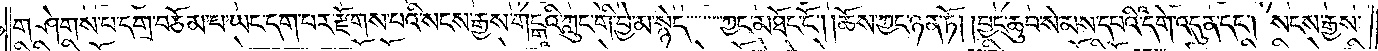གཤེགས་པ་དགྲ་བཅོམ་པ་ཡང་དག་པར་རྫོགས་པའི་སངས་རྒྱས་གངྒཱའི་ཀླུང་གི་བྱེ་མ་སྙེད་ཀྱང་མཐོང་ངོ༌། །ཆོས་ཀྱང་ཉན་ཏོ། །བྱང་ཆུབ་སེམས་དཔའི་དགེ་འདུན་དང༌། སངས་རྒྱས་
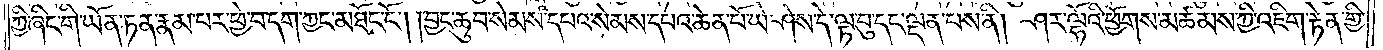ཀྱི་ཞིང་གི་ཡོན་ཏན་རྣམ་པར་ཕྱེ་བ་དག་ཀྱང་མཐོང་ངོ༌། །བྱང་ཆུབ་སེམས་དཔའ་སེམས་དཔའ་ཆེན་པོ་ཡེ་ཤེས་དེ་ལྟ་བུ་དང་ལྡན་པས་ནི། ཤར་ལྷོའི་ཕྱོགས་མཚམས་ཀྱི་འཇིག་རྟེན་གྱི་
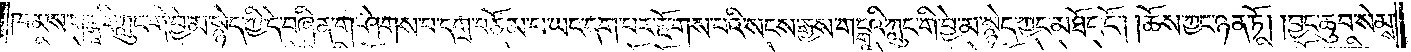ཁམས་གངྒཱའི་ཀླུང་གི་བྱེ་མ་སྙེད་ཀྱི་དེ་བཞིན་གཤེགས་པ་དགྲ་བཅོམ་པ་ཡང་དག་པར་རྫོགས་པའི་སངས་རྒྱས་གངྒཱའི་ཀླུང་གི་བྱེ་མ་སྙེད་ཀྱང་མཐོང་ངོ༌། །ཆོས་ཀྱང་ཉན་ཏོ། །བྱང་ཆུབ་སེམས་
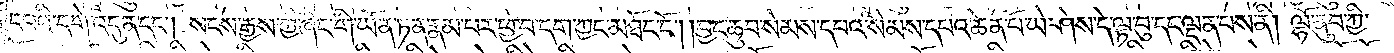དཔའི་དགེ་འདུན་དང༌། སངས་རྒྱས་ཀྱི་ཞིང་གི་ཡོན་ཏན་རྣམ་པར་ཕྱེ་བ་དག་ཀྱང་མཐོང་ངོ༌། །བྱང་ཆུབ་སེམས་དཔའ་སེམས་དཔའ་ཆེན་པོ་ཡེ་ཤེས་དེ་ལྟ་བུ་དང་ལྡན་པས་ནི། ལྷོ་ནུབ་ཀྱི་
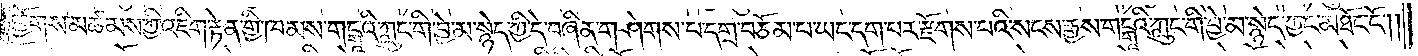ཕྱོགས་མཚམས་ཀྱི་འཇིག་རྟེན་གྱི་ཁམས་གངྒཱའི་ཀླུང་གི་བྱེ་མ་སྙེད་ཀྱི་དེ་བཞིན་གཤེགས་པ་དགྲ་བཅོམ་པ་ཡང་དག་པར་རྫོགས་པའི་སངས་རྒྱས་གངྒཱའི་ཀླུང་གི་བྱེ་མ་སྙེད་ཀྱང་མཐོང་ངོ༌༎
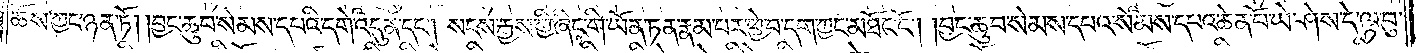ཆོས་ཀྱང་ཉན་ཏོ། །བྱང་ཆུབ་སེམས་དཔའི་དགེ་འདུན་དང༌། སངས་རྒྱས་ཀྱི་ཞིང་གི་ཡོན་ཏན་རྣམ་པར་ཕྱེ་བ་དག་ཀྱང་མཐོང་ངོ༌། །བྱང་ཆུབ་སེམས་དཔའ་སེམས་དཔའ་ཆེན་པོ་ཡེ་ཤེས་དེ་ལྟ་བུ་
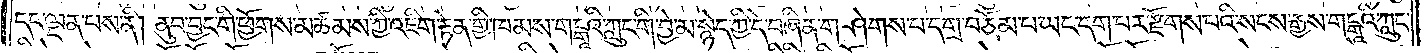དང་ལྡན་པས་ནི། ནུབ་བྱང་གི་ཕྱོགས་མཚམས་ཀྱི་འཇིག་རྟེན་གྱི་ཁམས་གངྒཱའི་ཀླུང་གི་བྱེ་མ་སྙེད་ཀྱི་དེ་བཞིན་གཤེགས་པ་དགྲ་བཅོམ་པ་ཡང་དག་པར་རྫོགས་པའི་སངས་རྒྱས་གངྒཱའི་ཀླུང་
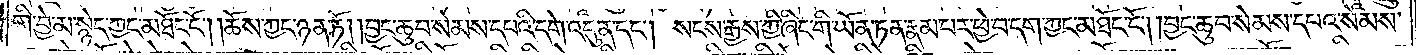གི་བྱེ་མ་སྙེད་ཀྱང་མཐོང་ངོ༌། །ཆོས་ཀྱང་ཉན་ཏོ། །བྱང་ཆུབ་སེམས་དཔའི་དགེ་འདུན་དང༌། སངས་རྒྱས་ཀྱི་ཞིང་གི་ཡོན་ཏན་རྣམ་པར་ཕྱེ་བདག་ཀྱང་མཐོང་ངོ༌། །བྱང་ཆུབ་སེམས་དཔའ་སེམས་
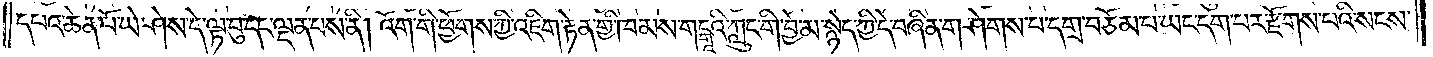དཔའ་ཆེན་པོ་ཡེ་ཤེས་དེ་ལྟ་བུ་དང་ལྡན་པས་ནི། འོག་གི་ཕྱོགས་ཀྱི་འཇིག་རྟེན་གྱི་ཁམས་གངྒཱའི་ཀླུང་གི་བྱེ་མ་སྙེད་ཀྱི་དེ་བཞིན་གཤེགས་པ་དགྲ་བཅོམ་པ་ཡང་དག་པར་རྫོགས་པའི་སངས་
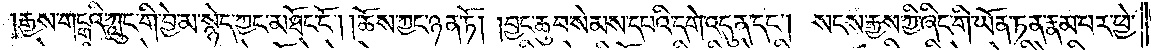རྒྱས་གངྒཱའི་ཀླུང་གི་བྱེ་མ་སྙེད་ཀྱང་མཐོང་ངོ༌། །ཆོས་ཀྱང་ཉན་ཏོ། །བྱང་ཆུབ་སེམས་དཔའི་དགེ་འདུན་དང༌། སངས་རྒྱས་ཀྱི་ཞིང་གི་ཡོན་ཏན་རྣམ་པར་ཕྱེ་
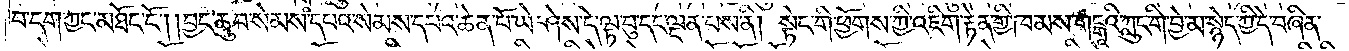བ་དག་ཀྱང་མཐོང་ངོ༌། །བྱང་ཆུབ་སེམས་དཔའ་སེམས་དཔའ་ཆེན་པོ་ཡེ་ཤེས་དེ་ལྟ་བུ་དང་ལྡན་པས་ནི། སྟེང་གི་ཕྱོགས་ཀྱི་འཇིག་རྟེན་གྱི་ཁམས་གངྒཱའི་ཀླུང་གི་བྱེ་མ་སྙེད་ཀྱི་དེ་བཞིན་
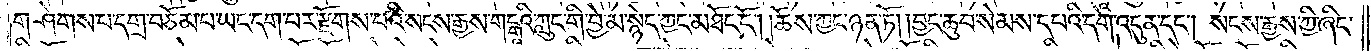གཤེགས་པ་དགྲ་བཅོམ་པ་ཡང་དག་པར་རྫོགས་པའི་སངས་རྒྱས་གངྒཱའི་ཀླུང་གི་བྱེ་མ་སྙེད་ཀྱང་མཐོང་ངོ༌། །ཆོས་ཀྱང་ཉན་ཏོ། །བྱང་ཆུབ་སེམས་དཔའི་དགེ་འདུན་དང༌། སངས་རྒྱས་ཀྱི་ཞིང་
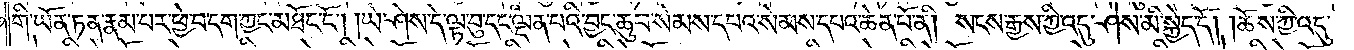གི་ཡོན་ཏན་རྣམ་པར་ཕྱེ་བ་དག་ཀྱང་མཐོང་ངོ༌། །ཡེ་ཤེས་དེ་ལྟ་བུ་དང་ལྡན་པའི་བྱང་ཆུབ་སེམས་དཔའ་སེམས་དཔའ་ཆེན་པོ་ནི། སངས་རྒྱས་ཀྱི་འདུ་ཤེས་མི་སྐྱེད་དོ། །ཆོས་ཀྱི་འདུ་
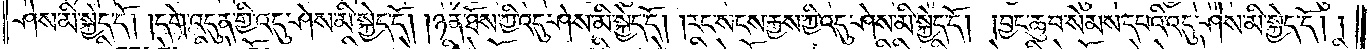ཤེས་མི་སྐྱེད་དོ། །དགེ་འདུན་གྱི་འདུ་ཤེས་མི་སྐྱེད་དོ། །ཉན་ཐོས་ཀྱི་འདུ་ཤེས་མི་སྐྱེད་དོ། །རང་སངས་རྒྱས་ཀྱི་འདུ་ཤེས་མི་སྐྱེད་དོ། །བྱང་ཆུབ་སེམས་དཔའི་འདུ་ཤེས་མི་སྐྱེད་དོ། །
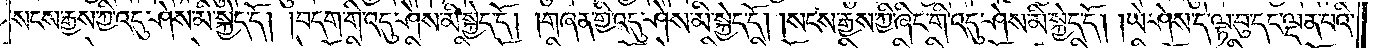སངས་རྒྱས་ཀྱི་འདུ་ཤེས་མི་སྐྱེད་དོ། །བདག་གི་འདུ་ཤེས་མི་སྐྱེད་དོ། །གཞན་གྱི་འདུ་ཤེས་མི་སྐྱེད་དོ། །སངས་རྒྱས་ཀྱི་ཞིང་གི་འདུ་ཤེས་མི་སྐྱེད་དོ། །ཡེ་ཤེས་དེ་ལྟ་བུ་དང་ལྡན་པའི་
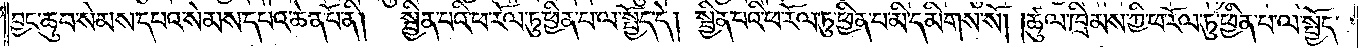བྱང་ཆུབ་སེམས་དཔའ་སེམས་དཔའ་ཆེན་པོ་ནི། སྦྱིན་པའི་ཕ་རོལ་ཏུ་ཕྱིན་པ་ལ་སྤྱོད་དེ། སྦྱིན་པའི་ཕ་རོལ་ཏུ་ཕྱིན་པ་མི་དམིགས་སོ། །ཚུལ་ཁྲིམས་ཀྱི་ཕ་རོལ་ཏུ་ཕྱིན་པ་ལ་སྤྱོད་
